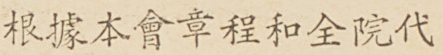根據本會章程和全院代
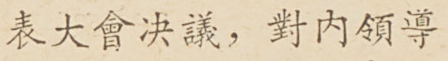表大會決議，對內領導
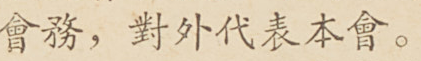會務，對外代表本會。
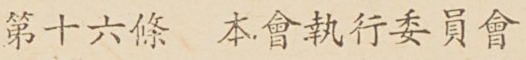第十六條 本會執行委員會
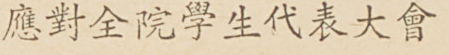應對全院學生代表大會
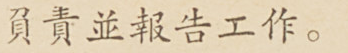負責並報告工作。
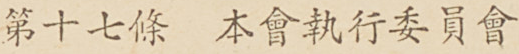第十七條 本會執行委員會
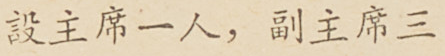設主席一人，副主席三
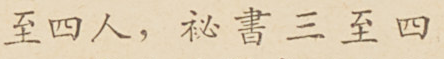至四人，祕書三至四
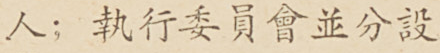人；執行委員會並分設
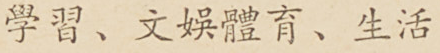學習、文娛體育、生活
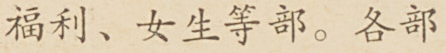福利、女生等部。各部
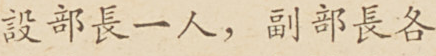設部長一人，副部長各
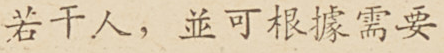若干人，並可根據需要
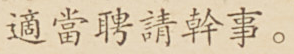適當聘請幹事。
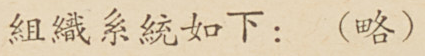組織系統如下： （略）
